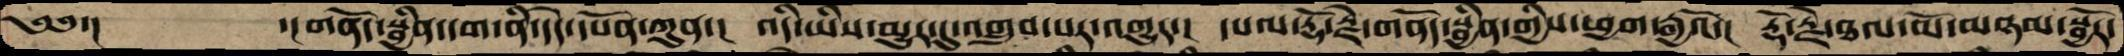༄༅་།         ་།གནོད་སྦྱིན་དག་ནི་དེད་དཔོན་ཀུན་།  འདི་ཡིས་མྱུར་དུ་འགྲུབ་པར་འགྱུར་།  དཔལ་རྡོ་རྗེ་གནོད་སྦྱིན་གྱིས་ཕྱག་རྒྱའོ་།  རྡོ་རྗེ་ཐལ་མོ་མཉམ་སྦྱོར་
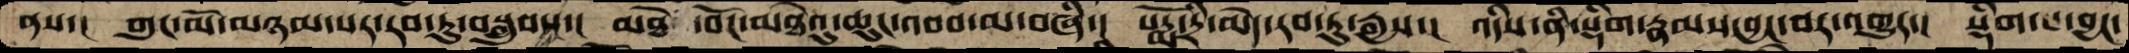ནས་།  གུང་མོ་མཉམ་པར་རབ་ཏུ་བསྒྲུབས་།  མཐེ ་བོང་མཐེའུ་ཆུང་འབབ་མ་བཞི་།  པདྨོ་དྲི་མེད་རབ་ཏུ་རྒྱས་།  འདིས་ནི་སྡིག་རྣམས་བྱང་བར་འགྱུར་།  སྡིག་པ་བྱང་
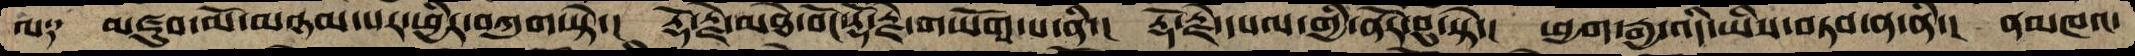ལ༑   མཛུབ་མོ་མཉམ་པར་ཕྱིར་བཀུག་སྟེ་།  རྡོ་རྗེ་མཐེ་བོང་རྡོ་རྗེ་གཡོག་པ་ནི་།  རྡོ་རྗེ་དཔལ་གྱི་ནོར་བུ་སྟེ་།  ཕྱག་རྒྱ་འདི་ཡིས་བཏབ་ན་ནི་།  ནམཁའ་
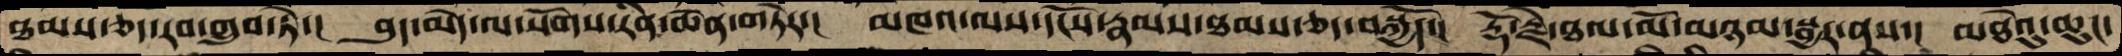ཐམས་ཅད་རབ་གྲུབ་ཏེ་།  བུད་མེད་ལ་སོགས་རིན་ཆེན་གཏེར་།  མཁའ་ལས་དངོས་རྣམས་ཐམས་ཅད་བསྐྱོད།  རྡོ་རྗེ་ཐལ་མོ་མཉམ་སྦྱར་ནས་།  མཐེའུ་་ཆུང་
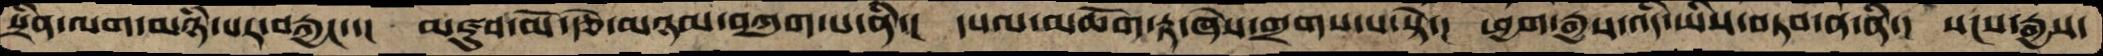སྲིན་ལག་མཉཾ་པར་བརྐྱང་་།  མཛུབ་མོ་རྩེ་མཉམ་བཀུག་པ་ནི་།  དཔལ་མཆོག་རྟ་ཞེས་གྲགས་པ་སྟེ་།  ཕྱག་རྒྱས་འདི་ཡིས་བཏབ་ན་ནི་།  སངས་རྒྱས་
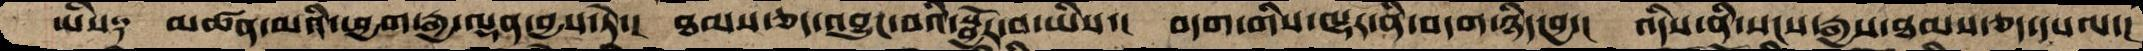ཡིས༑  མཚན་མའི་ཕྱག་རྒྱ་ལྡན་བྱས་ཏེ་།  ཐམས་ཅད་འབྱུང་བའི་སྦྱོར་བ་ཡིས་།  བདག་གིས་ལྷར་ནི་བདག་ཉིད་བྱ་།  འདིས་ནི་སངས་རྒྱས་ཐམས་ཅད་དཔལ་།
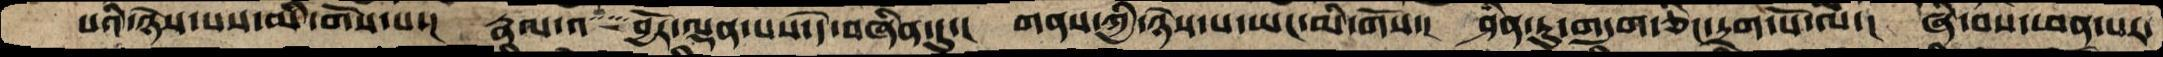པའི་ཉེས་པས་མི་གོས་པ་། རྣལ་འ བྱོར་ལྡན་པས་དེ་བཞིན་དུ་། གནས་ཀྱི་ཉེས་པ་ཡང་མི་གོས་། ཤིན་ཏུ་གདུག་ཅིང་དྲག་པོ་ལ་། ཞི་བས་ཕན་པར་
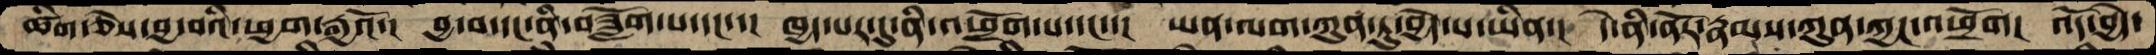ཚིག་ཅེས་བྱ་བའི་ཕྱག་རྒྱའོ་།  བྱ་བ་དང་ནི་བཟློག་པ་དང་་།  ཁྱད་པར་དུ་ནི་འཕྲོག་པ་དང་་།  ཡན་ལག་ཀུན་ཏུ་བྱེད་པ་ཡིན་།  དེ་ནིནོར་རྣམས་ཀུན་ཀྱང་འཕྲོག།  འོད་བྱེད་
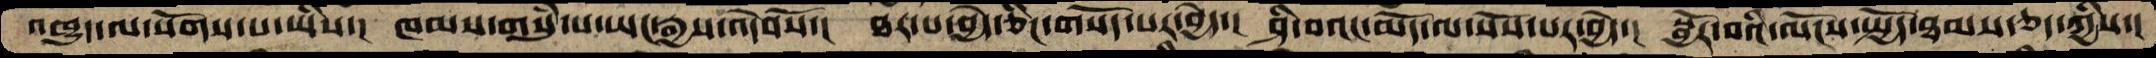འཁྱུད་ལ་སོགས་པ་ཡིས་།  ཁམས་གསུཾ་པ་ཡང་རྒྱས་འདེབསོ་།  ཐར་པ་བྱེད་ཅིང་གསོད་པར་བྱེད་།  ཤི་བའང་མོད་ལ་སོས་པར་བྱེད་།  སྦྱོར་བའི་ལོངས་སྤྱོད་ཐམས་ཅད་ཀྱིས་།
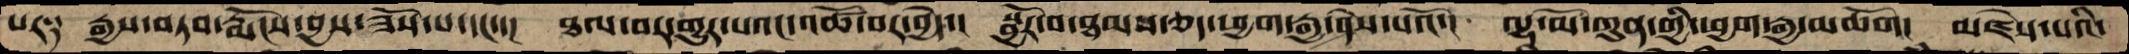པར༑  རྒྱས་བཏབ་རྨོངས་བྱས་ཟོས་པ་དང་་།  ཐལ་བར་གྱུར་པའང་འཚོ་བར་བྱེད་།  སྦྱོར་བ་ཐམས་ཅད་ཕྱག་རྒྱ་ཤེས་པའོ་།  ལྷ་མོ་ཀུན་གྱི་ཕྱག་རྒྱ་མཆོག།  མཛེས་པའི་
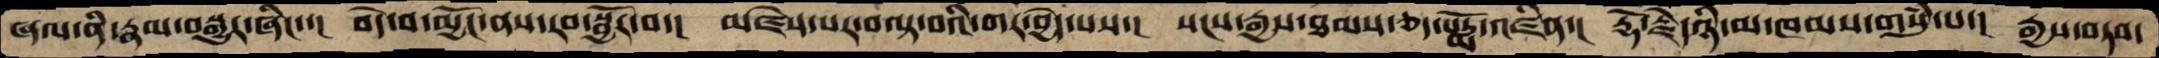ཞལ་ནི་རྣམ་བསྒྱུར་ཞིང་་།  བདེ་བ་མྱོང་ནས་རབ་སྦྱོར་བ་།  མཛེས་པར་བལྟ་བའི་གར་བྱེད་པས་།  སངས་རྒྱས་ཐམས་ཅད་པདྨོ་འཛིན་།  རྡོ་རྗེ་ཉི་མ་ཁམས་གསུཾ་པ་།  རྒྱས་བཏབ་
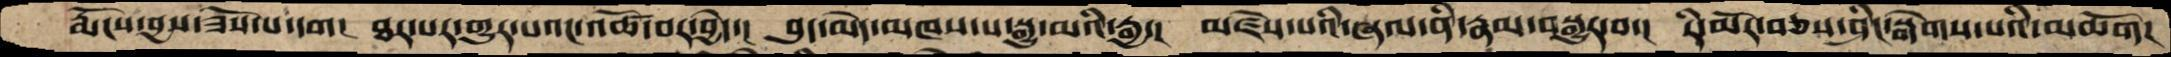རྨོངས་བྱས་ཟོས་པ་དག།  ཐར་པར་གྱུར་པའང་འཚོ་བར་བྱེད་།  བུད་མེད་མཁས་པ་སྒྱུ་མའི་རྒྱ་།  མཛེས་པའི་ཞལ་ནི་རྣམ་བསྒྱུར་བ་།  རི་མོར་བཅས་ཤིང་སྒེགས་པའི་མཆོག།
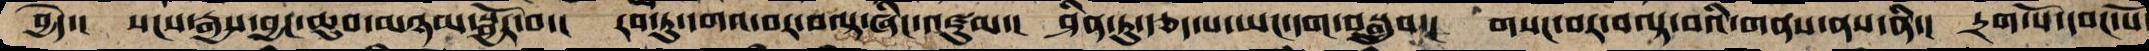བྱེད་།  སངས་རྒྱས་བྱང་ཆུབ་མཉམ་སྦྱོར་བ་།  རབ་ཏུ་དགའ་བར་བལྟ་ཞིང་འཛུམ་།  ཤིན་ཏུ་རྩད་པ་ཡང་དག་བསྒྲུབ་།  གསང་བར་བལྟ་བའི་གནས་ནས་ནི་།  དྲག་པོ་དབང་པོ
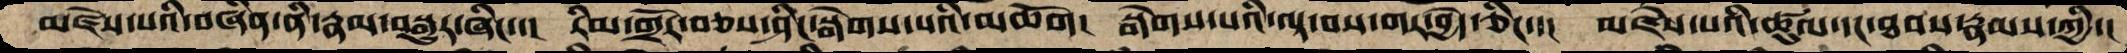མཛེས་པའི་བཞིན་ནི་རྣམ་བསྒྱུར་ཞིང་་།  རིམ་གྲོར་བཅས་ཤིང་སྒེགས་པའི་མཆོག།  སྒེགས་པའི་ལྟ་བས་གར་བྱེད་ཅིང་་།  མཛེས་པའི་ཚུལ་དང་ཐབས་རྣམས་ཀྱི་།
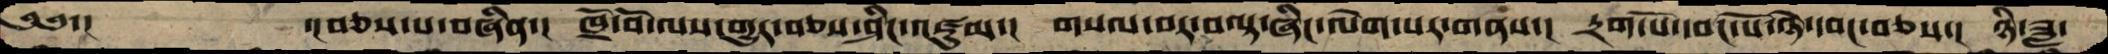༄༅་།     ་།བཅས་པ་བཞིན་།  ཁྲོ་བོ་ལས་གྱུར་བཅས་ཤིང་འཛུམ་།  གསལ་བར་བལྟ་ཞིང་ལེགས་པར་གནས་།  དྲག་པོ་དབང་པོ་ཉེ་དབང་བཅས་།  ཉི་ཟླ་
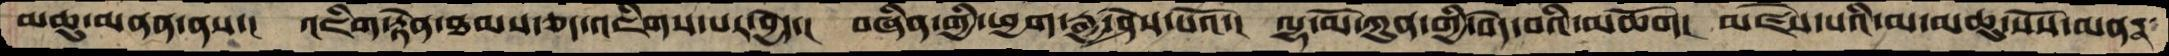མཆུ་མནན་ནས་། འཇིག་རྟེན་ཐམས་ཅད་འཇིགས་པར་བྱེད་། བཞིན་གྱི་ཕྱག་རྒྱ་ཤེས་པའོ་།  ལྷ་མོ་ཀུན་གྱི་བདེ་བའི་མཆོག། མཛེས་པའི་མ་མཆུ་སོས་མནན་
